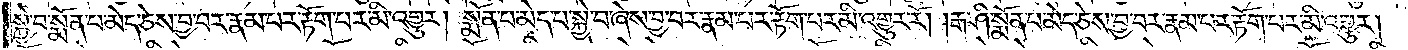སྐྱེ་བ་སྨོན་པ་མེད་ཅེས་བྱ་བར་རྣམ་པར་རྟོག་པར་མི་འགྱུར། སྨོན་པ་མེད་པ་སྐྱེ་བ་ཞེས་བྱ་བར་རྣམ་པར་རྟོག་པར་མི་འགྱུར་རོ། །རྒ་ཤི་སྨོན་པ་མེད་ཅེས་བྱ་བར་རྣམ་པར་རྟོག་པར་མི་འགྱུར།
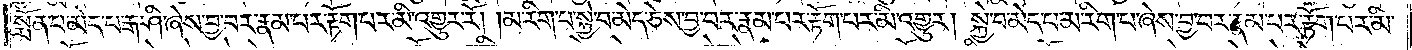སྨོན་པ་མེད་པ་རྒ་ཤི་ཞེས་བྱ་བར་རྣམ་པར་རྟོག་པར་མི་འགྱུར་རོ། །མ་རིག་པ་སྐྱེ་བ་མེད་ཅེས་བྱ་བར་རྣམ་པར་རྟོག་པར་མི་འགྱུར། སྐྱེ་བ་མེད་པ་མ་རིག་པ་ཞེས་བྱ་བར་རྣམ་པར་རྟོག་པར་མི་
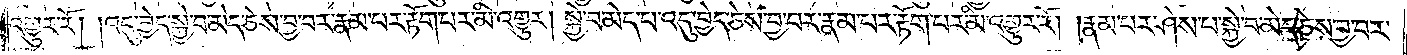འགྱུར་རོ། །འདུ་བྱེད་སྐྱེ་བ་མེད་ཅེས་བྱ་བར་རྣམ་པར་རྟོག་པར་མི་འགྱུར། སྐྱེ་བ་མེད་པ་འདུ་བྱེད་ཅེས་བྱ་བར་རྣམ་པར་རྟོག་པར་མི་འགྱུར་རོ། །རྣམ་པར་ཤེས་པ་སྐྱེ་བ་མེད་ཅེས་བྱ་བར་
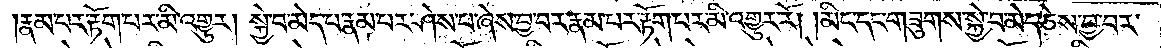རྣམ་པར་རྟོག་པར་མི་འགྱུར། སྐྱེ་བ་མེད་པ་རྣམ་པར་ཤེས་པ་ཞེས་བྱ་བར་རྣམ་པར་རྟོག་པར་མི་འགྱུར་རོ། །མིང་དང་གཟུགས་སྐྱེ་བ་མེད་ཅེས་བྱ་བར་
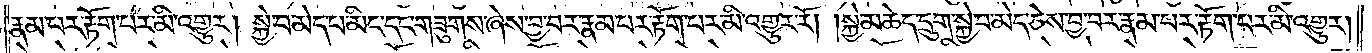རྣམ་པར་རྟོག་པར་མི་འགྱུར། སྐྱེ་བ་མེད་པ་མིང་དང་གཟུགས་ཞེས་བྱ་བར་རྣམ་པར་རྟོག་པར་མི་འགྱུར་རོ། །སྐྱེ་མཆེད་དྲུག་སྐྱེ་བ་མེད་ཅེས་བྱ་བར་རྣམ་པར་རྟོག་པར་མི་འགྱུར།
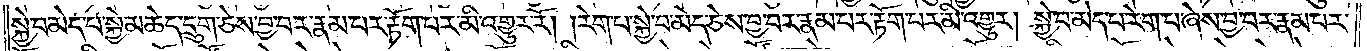སྐྱེ་བ་མེད་པ་སྐྱེ་མཆེད་དྲུག་ཅེས་བྱ་བར་རྣམ་པར་རྟོག་པར་མི་འགྱུར་རོ། །རེག་པ་སྐྱེ་བ་མེད་ཅེས་བྱ་བར་རྣམ་པར་རྟོག་པར་མི་འགྱུར། སྐྱེ་བ་མེད་པ་རེག་པ་ཞེས་བྱ་བར་རྣམ་
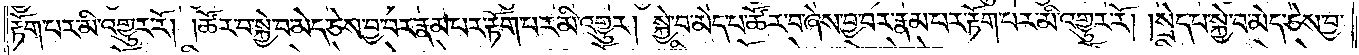པར་རྟོག་པར་མི་འགྱུར་རོ། །ཚོར་བ་སྐྱེ་བ་མེད་ཅེས་བྱ་བར་རྣམ་པར་རྟོག་པར་མི་འགྱུར། སྐྱེ་བ་མེད་པ་ཚོར་བ་ཞེས་བྱ་བར་རྣམ་པར་རྟོག་པར་མི་འགྱུར་རོ། །སྲེད་པ་སྐྱེ་བ་མེད་ཅེས་བྱ་
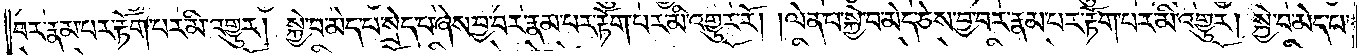བར་རྣམ་པར་རྟོག་པར་མི་འགྱུར། སྐྱེ་བ་མེད་པ་སྲེད་པ་ཞེས་བྱ་བར་རྣམ་པར་རྟོག་པར་མི་འགྱུར་རོ། །ལེན་པ་སྐྱེ་བ་མེད་ཅེས་བྱ་བར་རྣམ་པར་རྟོག་པར་མི་འགྱུར། སྐྱེ་བ་མེད་པ་
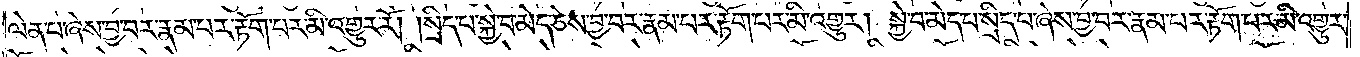ལེན་པ་ཞེས་བྱ་བར་རྣམ་པར་རྟོག་པར་མི་འགྱུར་རོ། །སྲིད་པ་སྐྱེ་བ་མེད་ཅེས་བྱ་བར་རྣམ་པར་རྟོག་པར་མི་འགྱུར། སྐྱེ་བ་མེད་པ་སྲིད་པ་ཞེས་བྱ་བར་རྣམ་པར་རྟོག་པར་མི་འགྱུར་
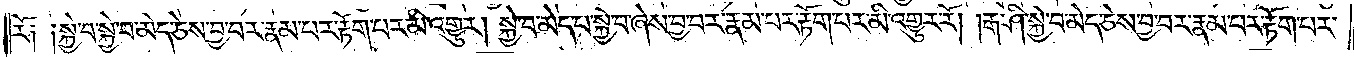རོ༏ ༏སྐྱེ་བ་སྐྱེ་བ་མེད་ཅེས་བྱ་པར་རྣམ་པར་རྟོག་པར་མི་འགྱུར། སྐྱེ་བ་མེད་པ་སྐྱེ་བ་ཞེས་བྱ་བར་རྣམ་པར་རྟོག་པར་མི་འགྱུར་རོ། །རྒ་ཤི་སྐྱེ་བ་མེད་ཅེས་བྱ་བར་རྣམ་པར་རྟོག་པར་
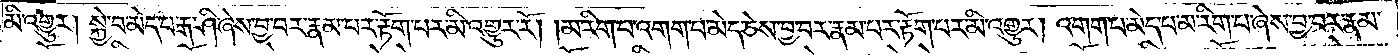མི་འགྱུར། སྐྱེ་བ་མེད་པ་རྒ་ཤི་ཞེས་བྱ་བར་རྣམ་པར་རྟོག་པར་མི་འགྱུར་རོ། །མ་རིག་པ་འགག་པ་མེད་ཅེས་བྱ་བར་རྣམ་པར་རྟོག་པར་མི་འགྱུར། འགག་པ་མེད་པ་མ་རིག་པ་ཞེས་བྱ་བར་རྣམ་
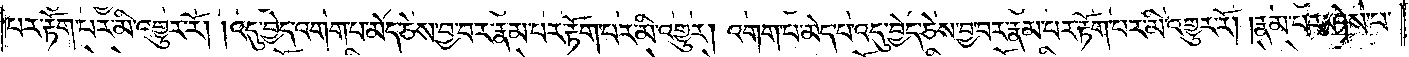པར་རྟོག་པར་མི་འགྱུར་རོ། །འདུ་བྱེད་འགག་པ་མེད་ཅེས་བྱ་བར་རྣམ་པར་རྟོག་པར་མི་འགྱུར། འགག་པ་མེད་པ་འདུ་བྱེད་ཅེས་བྱ་བར་རྣམ་པར་རྟོག་པར་མི་འགྱུར་རོ། །རྣམ་པར་ཤེས་པ་
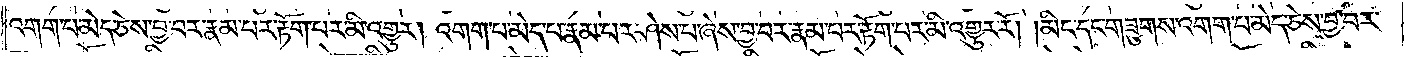འགག་པ་མེད་ཅེས་བྱ་བར་རྣམ་པར་རྟོག་པར་མི་འགྱུར། འགག་པ་མེད་པ་རྣམ་པར་ཤེས་པ་ཞེས་བྱ་བར་རྣམ་པར་རྟོག་པར་མི་འགྱུར་རོ། །མིང་དང་གཟུགས་འགག་པ་མེད་ཅེས་བྱ་བར་
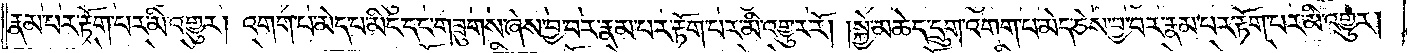རྣམ་པར་རྟོག་པར་མི་འགྱུར། འགག་པ་མེད་པ་མིང་དང་གཟུགས་ཞེས་བྱ་བར་རྣམ་པར་རྟོག་པར་མི་འགྱུར་རོ། །སྐྱེ་མཆེད་དྲུག་འགག་པ་མེད་ཅེས་བྱ་བར་རྣམ་པར་རྟོག་པར་མི་འགྱུར།
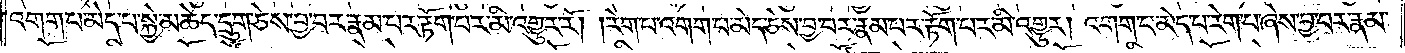འགག་པ་མེད་པ་སྐྱེ་མཆེད་དྲུག་ཅེས་བྱ་བར་རྣམ་པར་རྟོག་པར་མི་འགྱུར་རོ། །རེག་པ་འགག་པ་མེད་ཅེས་བྱ་བར་རྣམ་པར་རྟོག་པར་མི་འགྱུར། འགག་པ་མེད་པ་རེག་པ་ཞེས་བྱ་བར་རྣམ་
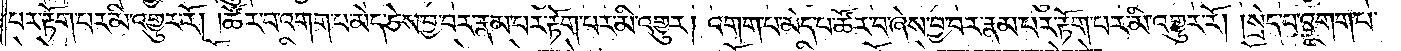པར་རྟོག་པར་མི་འགྱུར་རོ། །ཚོར་བ་འགག་པ་མེད་ཅེས་བྱ་བར་རྣམ་པར་རྟོག་པར་མི་འགྱུར། འགག་པ་མེད་པ་ཚོར་བ་ཞེས་བྱ་བར་རྣམ་པར་རྟོག་པར་མི་འགྱུར་རོ། །སྲེད་པ་འགག་པ་
